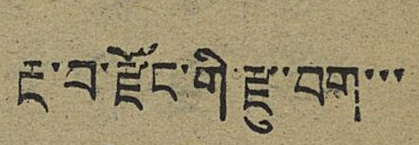རྔ་བ་རྫོང་གི་རྫུ་བག་་་
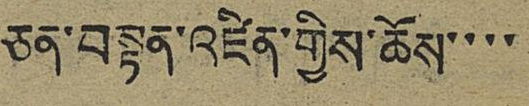ཅན་བསྟན་འཛིན་གྱིས་ཆོས་་་་
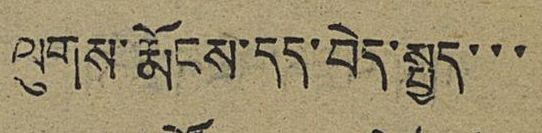ལུགས་རྨོངས་དད་བེད་སྤྱད་་་
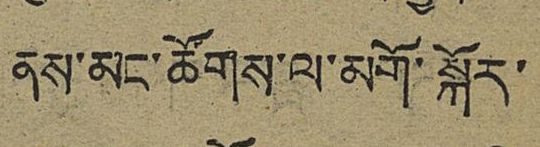ནས་མང་ཚོགས་ལ་མགོ་སྐོར་
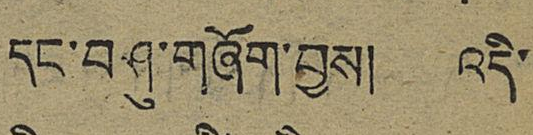དང་བཤུ་གཞོག་བྱས། འདི་
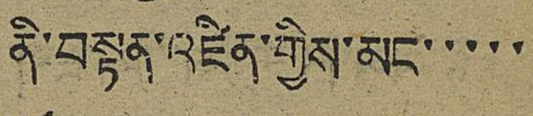ནི་བསྟན་འཛིན་གྱིས་མང་་་་་
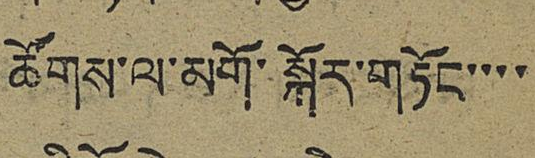ཚོགས་ལ་མགོ་སྐོར་གཏོང་་་་
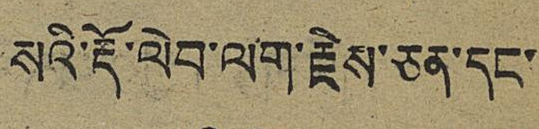སའི་རྡོ་ལེབ་ལག་རྗེས་ཅན་དང
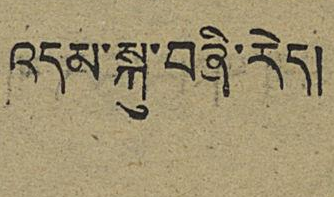འདམ་སྐུ་བཞི་རེད།
